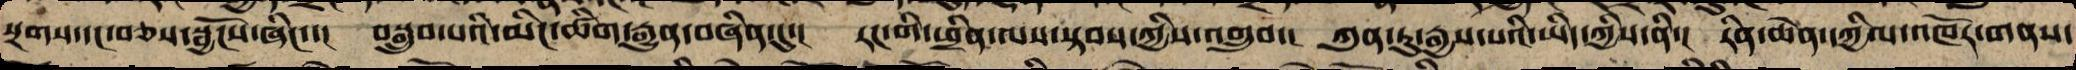སྔགས་དང་བཅས་སྦྱོངས་ཞིང་་། བསྒྲུབ་པའི་མིང་ཚིག་རྒྱུན་བཞིན་དུ་། རང་གི་ཕྲིན་ལས་སྟོབས་ཀྱིས་འགྲུབ་། ཀུན་ཏུ་རྒྱས་པའི་ཡིད་ཀྱིས་ནི་། རིན་ཆེན་དཀྱིལ་འཁོར་གནས་
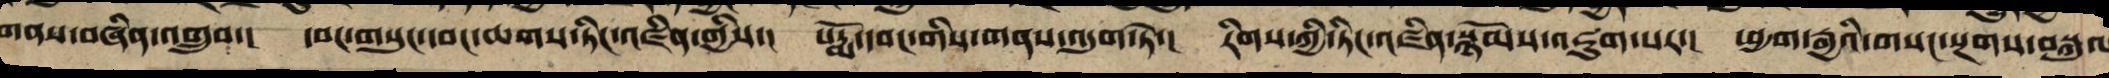གནས་བཞིན་འགྲུབ་། དབང་གསུང་དབང་ཆགས་ཏིང་འཛིན་གྱིས་། པདྨོ་དབང་གི་གནས་འདུག་ཏེ་། རིགས་ཀྱི་ཏིང་འཛིན་སྙོམས་འཇུག་པར་། ཕྱག་རྒྱའི་གསང་སྔགས་བསྐུལ
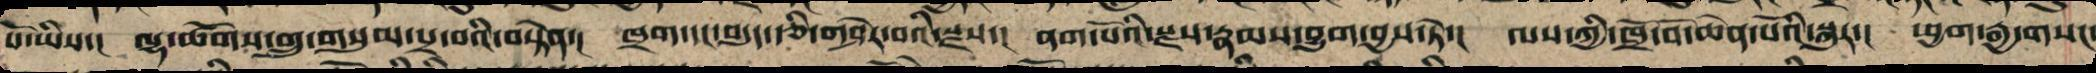པོ་ཡིས་། ལྷ་ཚོགས་གྲུ་གསུམ་སྲ་བའི་བསྟེན་། ཁྲག་དང་བདུད་རྩི་གཤེར་བའི་སྫས་། ནག་པོའི་སྫས་རྣམས་བྱུགས་བྱས་ཏེ་། ལས་ཀྱི་ཁྲོ་བོ་ཆེན་པོའི་སྐུར་། ཕྱག་རྒྱ་གསང་
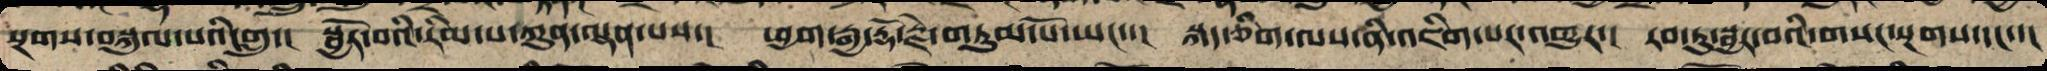སྔགས་བསྐུལ་བའི་གླུ་། སྦྱོར་བའི་རིམ་པ་ཀུན་ལྡན་པས་། ཕྱག་རྒྱ་རྡོ་རྗེ་གཏུམ་པོ་ཡང་་། སྐད་ཅིག་ལས་ནི་འཇིག་པར་འགྱུར་། རབ་ཏུ་སྦྱར་བའི་གསང་སྔགས་དང་་།
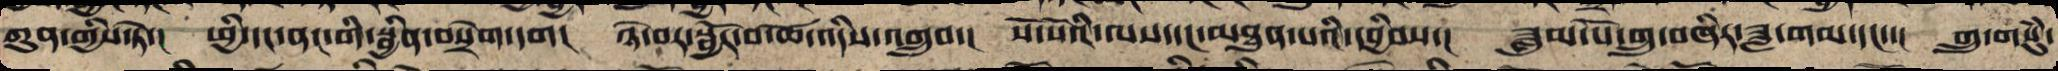ཀུན་བགྱིས་སྟེ་། ཕྱི་དང་ནང་གི་སྦྱིན་བསྲེག་དག། ཉེ་བར་སྦྱོར་བ་ཚེ་འདིས་འགྲུབ་། སོ་སོའི་ལས་དང་མཐུན་པའི་དབྱིབས་། ཟླུམ་པོ་གྲུ་བཞིར་ཟླ་གམ་དང་་། གྲུ་གསུཾ་
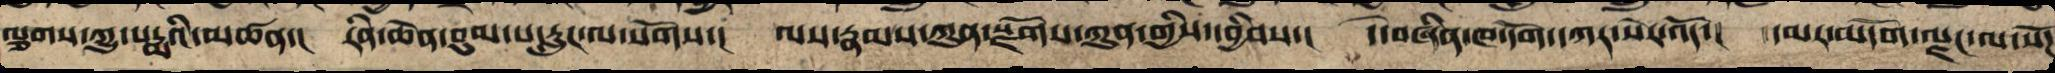ལྕགས་ཀྱུ་པདྨའི་མཚན་། རིན་ཆེན་བུམ་པ་རླུང་ལ་སོགས་། ལས་རྣམས་ཀུན་སྫོགས་ཀུན་གྱི་དབྱིབས་། དེ་ཉིད་ཁ་དོག་དཀར་སེར་པོ་། དམར་དང་ལྗང་ལ་སོཌ
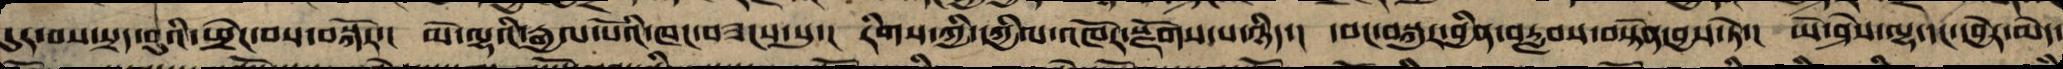དུར་བ་སྲད་བུའི་ཕྲེང་བས་བསྐོར་། མེ་ལྷའི་རྒྱལ་པོའི་ཁང་བཟངས་སུ་། རིགས་ཀྱི་དཀྱིལ་འཁོར་སྫོགས་པ་ཉིད་། དབང་བསྐུར་བྱིན་བརླབས་བསྟེན་བྱས་ཏེ་། ཡེ་ཤེས་ལྷ་དང་དབྱེར་མེད་
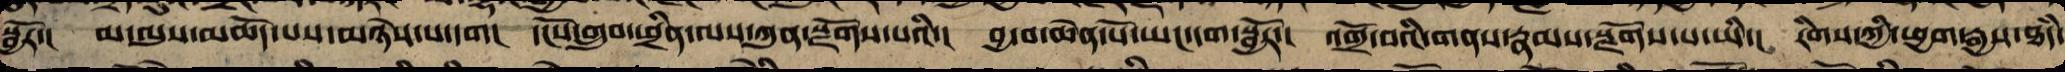སྦྱོར་། མ་ལུས་མཆོད་པས་མཉེས་པ་དག། དངོས་གྲུབ་ཕྲིན་ལས་ཀུན་སྫོགས་པའི་། བྱ་བ་ཆེན་པོར་ཡང་དག་སྦྱོར་། འགྲོ་བའི་གནས་རྣམས་སྫོགས་པ་ཡི་། རིགས་ཀྱི་ཕྱག་རྒྱས་ཐཾད་
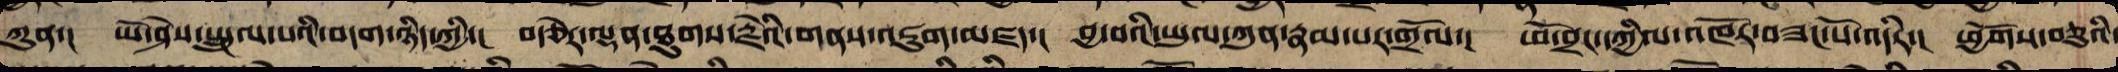ཀུན་། ཡེ་ཤེས་སྤྲུལ་པའི་བདག་ཉིད་ཀྱིས་། བརྩེ་ལྡན་ཐུགས་རྗེའི་གནས་འཇུག་མཛད་། བྱ་བའི་ཡུལ་ཀུན་རྣམ་པར་གྲོལ་། ཕོ་བྲང་དཀྱིལ་འཁོར་བཟང་པོ་འདིར་། ཕྱོགས་བཅུའི་
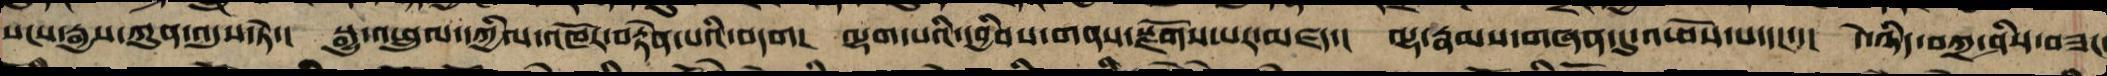སངས་རྒྱས་ཀུན་འདུས་ཏེ་། སྒྱུ་འཕྲུལ་དཀྱིལ་འཁོར་བརྟེན་པའི་བདག། ལྷག་པའི་དབྱིབས་གནས་སྫོགས་པར་མཛད་། ལྷ་རྣམས་གཞན་དུ་འཕོས་པ་དང་་། དེ་ཉིད་བཀྲ་ཤིས་བཟང་
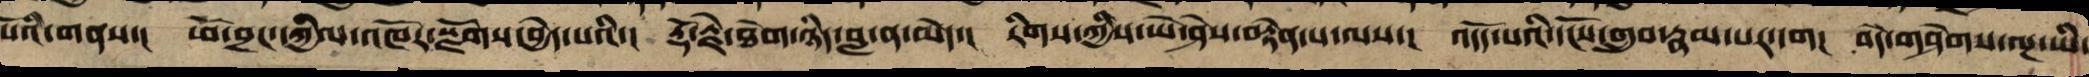པོའི་གནས་། ཕོ་བྲང་དཀྱིལ་འཁོར་སྫོགས་བྱེད་པའི་། རྡོ་རྗེ་ཐེག་ཉིད་བླ་ན་མེད་། རིགས་ཀྱི་ཡེ་ཤེས་བརྟེན་པ་ལས་། འདོད་པའི་དངོས་གྲུབ་རྣམ་པར་དག། བདེ་གཤེགས་ལྔ་ཡི་
